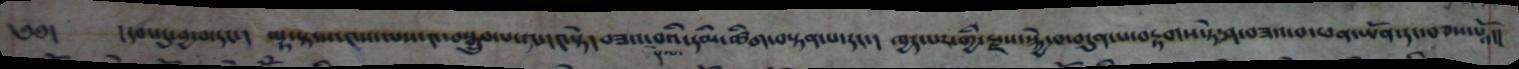༄༅།   །དབང་དུ་བྱ་བ་དང་།  ལྟ་སྟངས་༤ས་ལས་༤་བསྒྲུབ་པ་ལ་༤སྟེ།  བཟའ་བའི་དམ་ཚིག་བསྟན་པ་དང་།  ཁྱད་པར་གྱི་རྫས་སྐྱེ་བ་བདུན་པ་བརྟགས་ཏེ་ཤ་བཟའ་བ་ཕན་ཡོན་དང་བཅས་པའོ།།
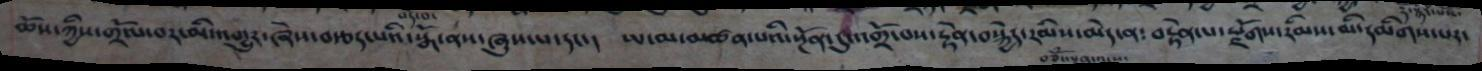ཆོས་ཀྱིས་གྲོལ་བར་མི་འགྱུར་ཞེས་བརྩད་པའི་སྒོ་ནས་ཞུས་པ་དང་།  ཡ་མ་མཚན་པའི་སྔོན་དུ་འགྲོ་བས་རྟེན་བསྐྱེད་༢མིས་མེད་ན༴  བརྟེན་པ་རྫོགས་རིམས་མི་དམིགས་པར་
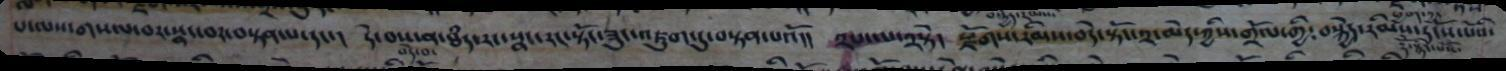པ་ལས་གསལ་བར་སྣང་བར་བསྟན་པ་དང་།  དེ་བས་ན་ཐཾད་རང་སྣང་རང་སྟོང་ཟུང་འཇུག་དུ་བསྟན་པའོ།།   ༢པ་ལ་༢སྟེ།  རྫོགས་རིམས་བདེ་སྟོང་༢་མེད་ཀྱིས་གྲོལ་གྱི༴  བསྐྱེད་རིམས་དངོས་པོའི་
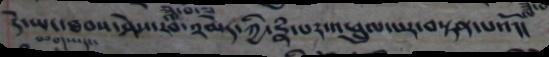དེ་ཡང་ཐབས་ཤེས་རབ་༢མེད་ཀྱི་རྣཾ་པར་འཕྲུལ་པར་བསྟན་པའོ།།
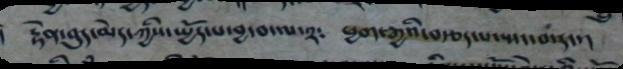རྟེན་བུད་མེད་ཀྱིས་སྤྱོད་པ་བྱ་བ་ལ་༢༴ ཕྱག་རྒྱའི་བརྩད་པ་སྤང་བ་དང་།
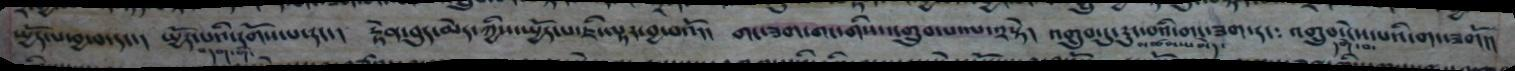སྤྱོད་པ་བྱ་བ་དང་།  སྤྱོད་པའི་དགོས་པ་དང་།  རྟེན་བུད་མེད་ཀྱིས་སྤྱོད་པ་ཇི་ལྟར་བྱ་བའོ།།  གང་ཟག་གང་གིས་འགྲུབ་པ་ལ་༢སྟེ།   འགྲུབ་དུ་རུང་བའི་གང་ཟག་དང༴  འགྲུབ་ངེས་པའི་གང་ཟགོ།།
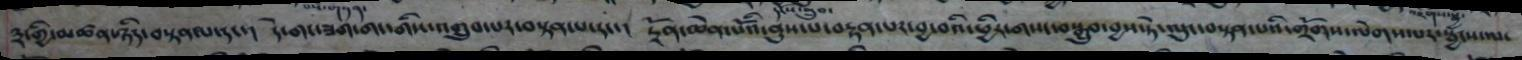༣་གྱི་མཚན་ཉིད་བསྟན་པ་དང་།   དེ་གང་ཟག་གང་གིས་འགྲུབ་པར་བསྟན་པ་དང་།   དྲོན་ཆེན་པོའི་ནུས་པ་བརྟན་པར་བྱ་བའི་ཕྱིར་གསང་བསྒྲུབ་བྱས་ཏེ་ལུང་བསྟན་པའི་གྲོགས་ལེགས་པར་སྦྱངས་པ་
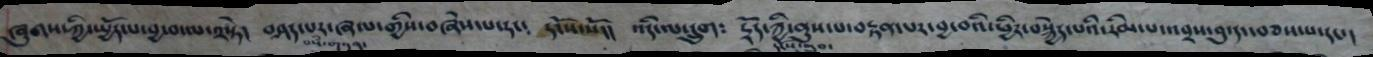ཞུགས་ཀྱི་སྤྱོད་པ་བྱ་བ་ལ་༢སྟེ།   བཤད་པར་ཞལ་གྱིས་བཞེས་པ་རང༴  དངོས་སོ།།  འདི་ལ་དྲུག༴  དྲོད་ཀྱི་ནུས་པ་བརྟན་པར་བྱ་བའི་ཕྱིར་བསྐྱེད་པའི་རིམ་པ་འབྲས་བུ་དང་བཅས་པ་དང་།
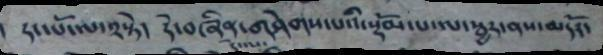དང་པོ་ལ་༢སྟེ།     དེ་བཞིན་གཤེགས་པའི་སྡོམ་པ་ལ་སྦྱར་ནས་མདོར་
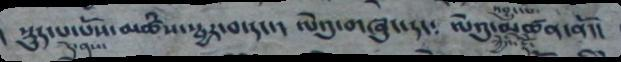སྡུད་པ་པོས་མཚཾས་སྦྱར་བ་དང་།  ལེའུ་གཞུང་དང༴  ལེའུ་མཚན་ནོ།།
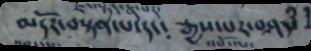མདོར་བསྟན་པ་དང༴  རྒྱས་པར་བཤད་
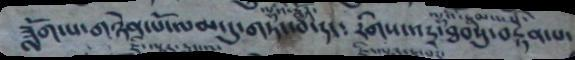ཟློག་པ་གཉེན་པོ་ལམ་དུ་གཏང་བ་དང༴  རིགས་འདྲ་ཐབསུ་བརྟན་པ་
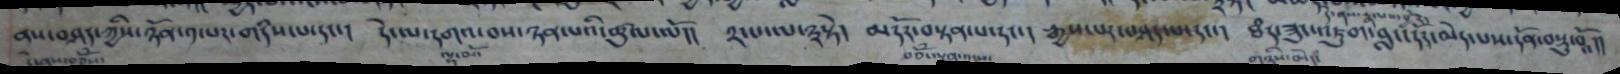ནས་བཤད་ཀྱིས་ཉོན་༡་པར་གདིས་པ་དང།  དེ་ལ་དགའ་བས་ཉན་པའི་ཚུལ་ལོ།།  ༢་པ་ལ༣སྟེ།   མདོར་བསྟན་དང་།   རྒྱས་པར་བཤད་པ་དང།  ཐཾད་ཟུང་འཇུག་བླང་དོད་མེད་པས་དོན་བསྡུ་བའོ།།
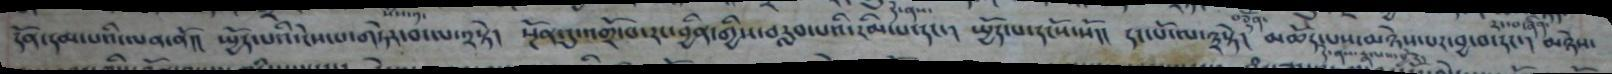དོན་དམ་པའི་ལན་ནོ།།   ཡྱོད་པའི་ངེས་པ་གཏེར་བ་ལ་༢སྟེ།  སྔོན་དུ་འགྲོ་བ་དང་བྱིན་གྱིས་བརླབ་པའི་རིམ་པ་དང་།  ཡྱོད་པ་དངོས་སོ།།   དང་པོ་ལ་༣སྟེ།   མཆོད་པས་མཉེས་པར་བྱ་བ་དང་། མཉེས་
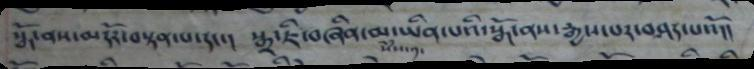སྒོ་ནས་མདོར་བསྟན་པ་དང་།   སྒྲ་ཇི་བཞིན་མ་ཡིན་པའི་སྒོ་ནས་རྒྱས་པར་བཤད་པའོ།།
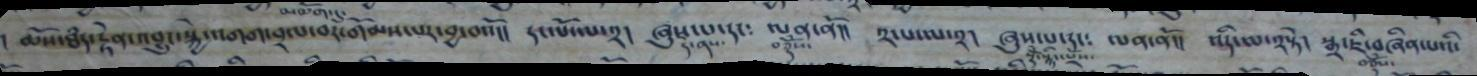ཆོས་ཐཾད་རྟེན་འབྱུང་སྐྱེ་འགག་བྲལ་བར་གོམས་པར་བྱ་བའོ།།   དང་པོ་ལ༢།   ཞུས་པ་དང༴   ལན་ནོ།།   ༢་པ་ལ༢།   ཞུས་པ་དང༴   ལན་ནོ།།   འདི་ལ་༢སྟེ།   སྒྲ་ཇི་བཞིན་པའི་
